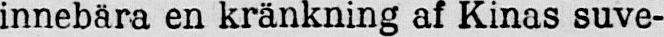innebära en kränkning af Kinas suve-
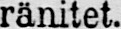ränitet.
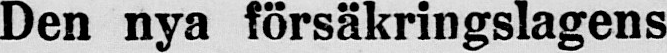Den nya försäkringslagens
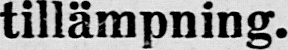tillämpning.
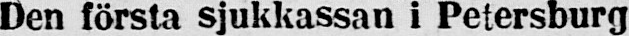Den första sjukkassan i Petersburg
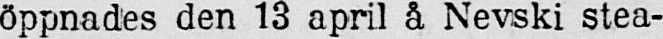öppnades den 13 april å Nevski stea-
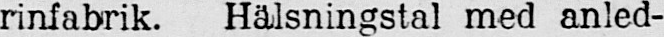rinfabrik. Hälsningstal med anled-
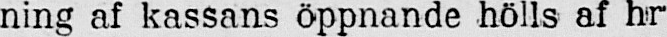ning af kassans öppnande hölls af hr
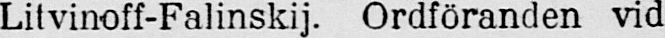Lilvinoff-Falinskij. Ordföranden vid
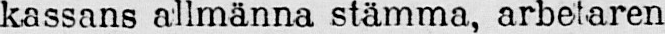kassans allmänna stämma, arbetaren
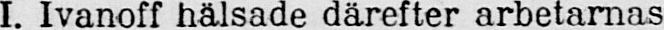I. Ivanoff hälsade därefter arbetarnas
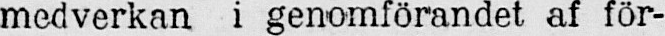medverkan i genomförandet af för-
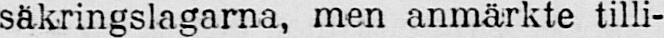säkringslagarna, men anmärkte tilli-
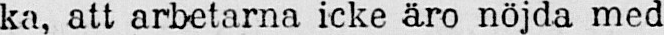ka, att arbetarna icke äro nöjda med
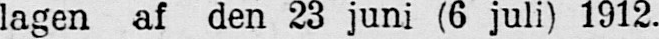lagen af den 23 juni (6 juli) 1912.
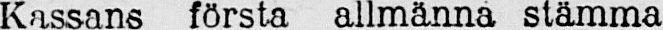Kassans första allmänna stämma
